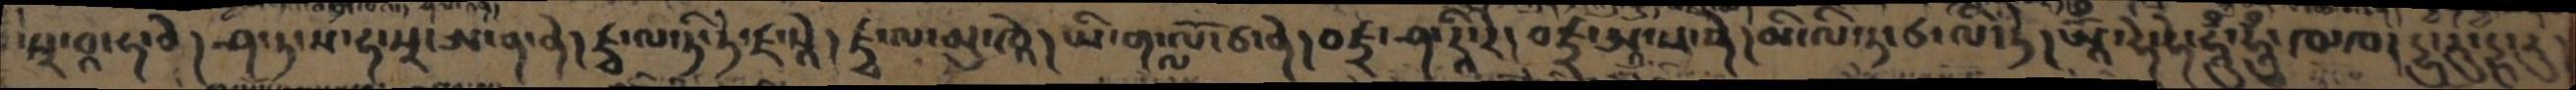སྲ་བཱ་ཧ་བེ།  ཤ་ཏ་ས་དྷ་སྲ་ཨ་ན་ནེ། ཛྭ་ལ་ཏི་ཏེ་ཛ་སཱེ། ཛྭ་ལ་མུ་ཁཱེ། ཡི་ག་ལློ་ཙ་ནེ། བཛྲ་ཤ་རཱི་རེ། བཛྲ་ཨ་ས་ནེ། མི་ལི་ཏ་ཙ་ལི་ཏེ། ཨཱོྃ་ཧེ་ཧེ་ཧཱུྃ་ཧཱུྃ་ཁ་ཁ། དྷུ་རུ་དྷུ་རུ་
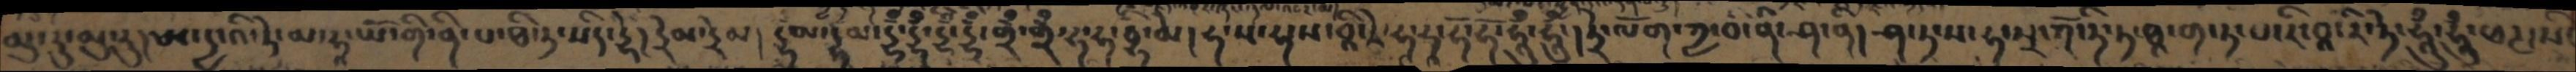མུ་རུ་མུ་རུ། ཨ་དྱ་འི་རེ་མ་ཧཱ་ཡོ་གི་ནི་པ་ཐི་ཏ་སིད་དྷི། དྲེམ་དྲེམ། དྷམ་དྷམ་དྷྃ་དྷྃ་དྷྃ་དྷཾ་གྲྃ་གྲྃ་ཧ་ཧ་བྷ་མེ། ཧ་ས་ཧ་ས་བཱི་རེ་ཧཱ་ཧཱ་ཧཱོ་ཧཱོ་ཧཱུྃ་ཧཱུྃ་། ཏྲེ་ལོག་ཀྱ་བི་ནི་ཤ་ནི། ཤ་ཏ་ས་ཧ་སྲ་ཀོ་ཏི་ཏ་ཐཱ་ག་ཏ་པ་རི་བཱ་རི་ཏེ་ཧཱུྃ་ཧཱུྃ་ཕཊ་སི་
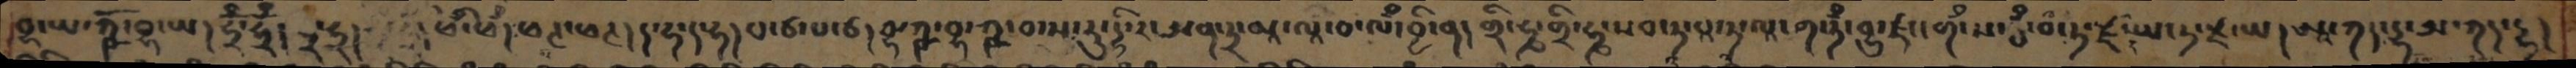བྷ་ཡ་ཀྵོ་བྷ་ཡ། ཧྲྃ་ཧྲྃ། ཧྲ་ཧྲ། ཕྃ་ཕྃ། ཕཊ་ཕཊ། ད་ཧ་ད་ཧ། པ་ཙ་པ་ཙ། བྷ་ཀྵ་བྷ་ཀྵ་བ་ས་རུ་དྷི་ར་ཨན་ཏྲ་མཱ་ལཱ་བ་ལྃ་བྱི་ན། གྲི་ཧྞ་གྲི་ཧྞ་སབ་ཏཱ་པཱ་ཏཱ་ལཱ་ག་ཏྃ་བྱུ་ཛང་གྃ་ས་རྦྃ་བ་ཏ་ཛ་ཡ་ཏ་ཛ་ཡ། ཨཱ་ཀད་དྷ་ཨ་ཀད་དྷ།
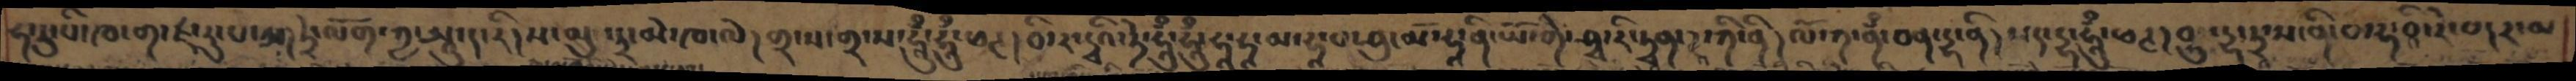ཧ་རུ་སི་ཁ་ག་ཛ་རུ་པ་ཨ་ཏྲེ་ལོག་ཀྱ་ཨཱུ་ད་རི།ས་མུ་ཏྲ་མེ་ཁ་ལེ། གྲ་ས་གྲ་ས་ཧཱུྃ་ཧཱུྃ་ཕཊ། བི་ར་ཏྭའི་ཏེ་ཧཱུྃ་ཧཱུྃ་ཧཱ་ཧཱ་མ་ཧཱ་པ་ཤུ་མོ་ཧཱ་ནི་ཡོ་གེ་ཤྭ་རི་ཏྭན་ཌཱ་ཀི་ནི། ལོ་ཀ་ནྃ་བན་དྷ་ནི།སད་དྷ་ཧཱུྃ་ཕཊ། བུ་དྷ་ཏྲཱ་ས་ནི་བ་ཧ་བཱི་རེ་པ། ར་མ
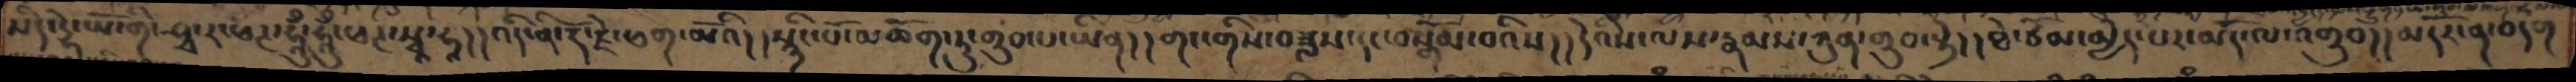སིད་དྷེ་ཡོ་གི་ཤྭ་ར་ཕཊ་ཧཱུྃ་ཧཱུྃ་ཕཊ་སྭཱ་ཧཱ།། འདི་ནི་རྡོ་རྗེ་ཕག་མོའི།། སྙིང་པོ་མཆོག་ཏུ་གྲུབ་པ་ཡིན།། གང་གིས་བཟླས་དང་བསྒོམ་བའིས།། དེའིས་རྣམས་ཀུན་གྲུབ་སྟེ།། ཐེ་ཙོམ་མྱེད་པར་མོད་ལ་འགྲུབ།། མདོར་ན་བདག
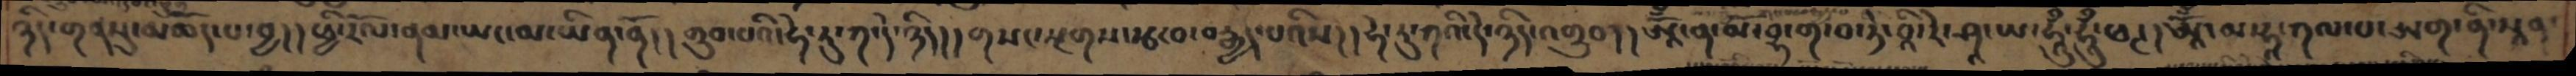ཉིད་གནསུ་མཆོད་པ་བྱ།། ཕྱི་རོལ་ནམ་ཡང་མ་ཡིན་ནོ།། གྲུབ་པའི་ཧེ་རུ་ཀ་དེ་ཉིད།། གསང་སྔགས་རྩ་བ་བརྒྱད་པའིས།། ཧེ་རུ་ཀའི་དེ་ཉིད་འགྲུབ།། ཨཱོྃ་ན་མོ་བྷ་ག་བ་ཏེ་བཱི་རེ་ཤཱ་ཡ་ཧཱུྃ་ཧཱུྃ་ཕཊ། ཨཱོྃ་མ་ཧཱ་ཀལ་པ་ཨག་ནི་སཱན་
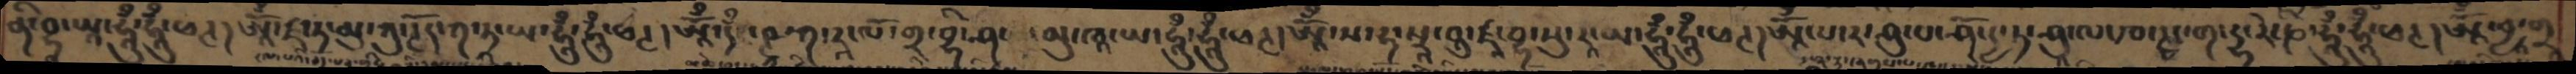ནི་བྷ་ཡཱ་ཧཱུྃ་ཧཱུྃ་ཕཊ། ཨཱོྃ་ཛ་ཏ་མུ་ཀུ་ཊོར་ཀ་ཏ་ཡ་ཧཱུྃ་ཧཱུྃ་ཕཊ། ཨཱོྃ་དྃ་བྚ་ཀ་རཱ་ལོ་གྲ་བྷི་ཤ་མུ་ཁཱ་ཡ་ཧཱུྃ་ཧཱུྃ་ཕཊ། ཨཱོྃ་ས་ཧ་སྲཱ་བུ་ཛཱ་བྷ་སུ་རཱ་ཡ་ཧཱུཾ་ཧཱུཾ་ཕཊ། ཨཱོྃ་པ་ར་ཤུ་པ་ཤོ་དྱ་ཏ་ཤུ་ལང་བ་ཊཱང་ག་དྷ་རེ་ཎི་ཧཱུྃ་ཧཱུྃ་ཕཊ། ཨཱོྃ་བྱ་གྲ
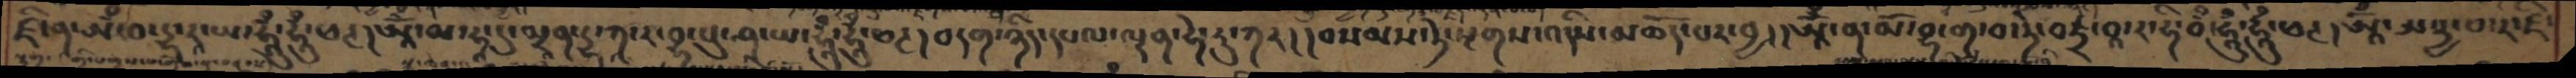ཛི་ན་ཨྃ་བ་དྷ་ར་ཡ་ཧཱུྃ་ཧཱུྃ་ཕཊ། ཨཱོྃ་མ་ཧཱ་དུ་མྲན་དྷ་ཀཱ་ར་བྷ་སུ་ཤཱ་ཡ་ཧཱུྃ་ཧཱུྃ་ཕཊ། བདག་ཉིད་དཔལ་ལྡན་ཧེ་རུ་ཀར།། བསམས་ཏེ་སྔགས་འདིས་མཆོད་པར་བྱ།། ཨཱོྃ་ན་མོ་བྷ་ག་བ་ཏེ་བཛྲ་བཱ་ར་དྷི་བྃ་ཧཱུྃ་ཧཱུྃ་ཕཊ། ཨཱོྃ་ཨ་ཏྱ་བ་ར་ཛི་
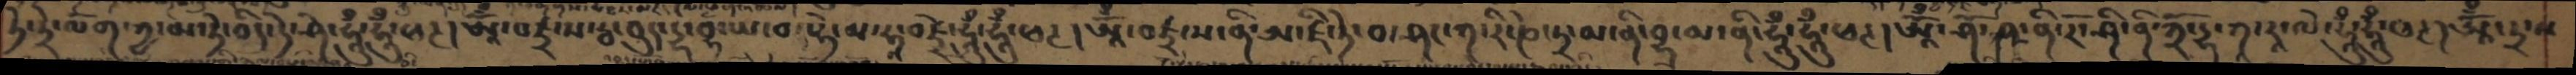ཏེ་ཏྲེ་ལོག་ཀྱ་མ་ཏེ་བིད་དེ་ཤེ་ཧཱུྃ་ཧཱུྃ་ཕཊ། ཨཱོྃ་བཛྲ་ས་རྦ་བུད་དྷ་བྷ་ཡ་བ་ཧེ་མ་ཧཱ་བཛྲེ་ཧཱུྃ་ཧཱུྃ་ཕཊ། ཨཱོྃ་བཛྲ་ས་ནི་ཨ་ཛི་ཏེ་བ་ཤང་ཀ་རི་ཎེ་ཏྲ་མ་ནི་བྷྲ་མ་ནི་ཧཱུྃ་ཧཱུྃ་ཕཊ། ཨཱོྃ་ཤོ་ཥ་ནི་རོ་ཤི་ནི་ཀྲོ་དྷ་ཀ་རཱ་ལེ་ཧཱུྃ་ཧཱུྃ་ཕཊ། ཨཱོྃ་ཏྲ་ས
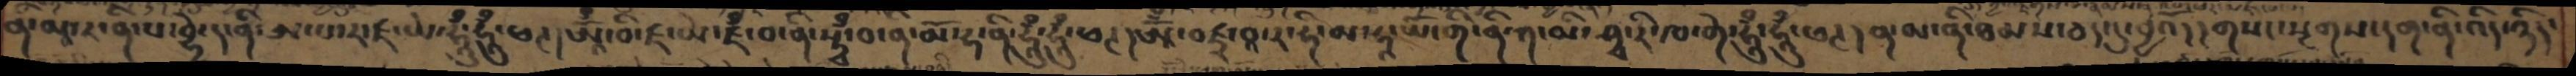ནི་མཱ་ར་ནི་པ་བྷེ་ད་ནི་ཨ་པ་ར་ཛ་ཡེ་ཧཱུྃ་ཧཱུྃ་ཕཊ། ཨཱོྃ་བི་ཛ་ཡེ་ཛྃ་བ་ནི་སྟྭྃ་བ་ན་མོ་ཧ་ནི་ཧཱུྃ་ཧཱུྃ་ཕཊ། ཨཱོྃ་བཛྲ་བཱ་ར་ཧི་མ་ཧཱ་ཡོ་གི་ནི་ཀ་མི་ཤྭ་རི་ཁ་གེ་ཧཱུྃ་ཧཱུྃ་ཕཊ། ན་མ་ནི་ཐམས་ཅད་དུ་བྱའོ།། གསང་སྔགས་དག་ནི་འདི་ཉིད་
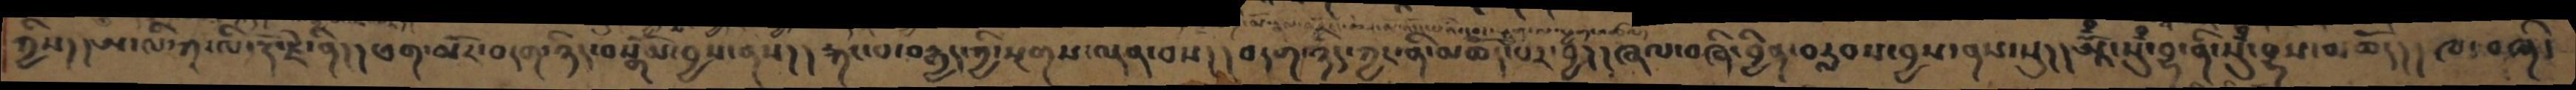ཀྱིས།། ཨ་ལི་ཀཱ་ལི་རྡོ་རྗེ་ནི།། ཕག་མོར་བདག་ཉིད་བསྒོམ་བྱས་ནས།། རྐང་པ་བརྒྱད་ཀྱི་སྔགས་ལྡན་བས།། བདག་ཉིད་ཀྱང་ནི་མཆོད་པར་བྱ།། ཞལ་བཞི་བྱིན་བརླབས་བྱས་ནས་སུ།། ཨཱོྃ་སུྃ་བྷ་ནི་སུྃ་བྷས་མཆོད།། ཁ་བཞི་
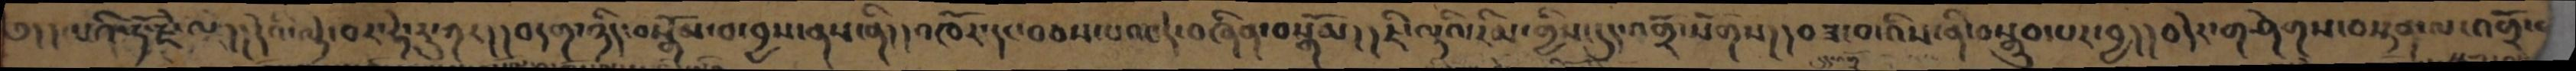༄།།པའི་རྡོ་རྗེ་ལ།། དེའི་ལྟེ་བར་ཧེ་རུ་ཀར།། བདག་ཉིད་བསྒོམ་བ་བྱས་ནས་ནི།།འཁོར་དང་བཅས་པའང་དེ་བཞིན་བསྒོམ།། ཇི་ལྟའི་རིམ་གྱིས་དུད་འགྲོ་སོགས།། བཟ་བ་འིས་ནི་བསྒྲུབ་པར་བྱ།། བདེར་གཤེགས་བསྟན་ལ་འགྲོ་བ
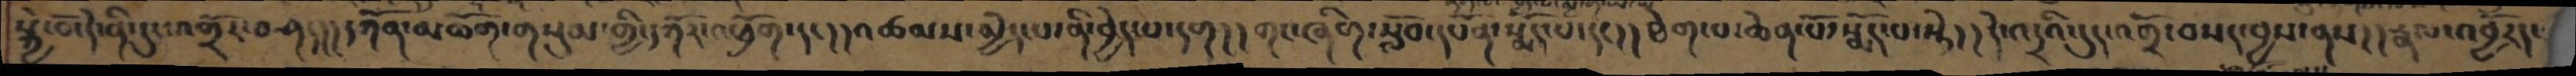སྐྱེ་བོ་དེ་ནི་དུད་འགྲོར་བཤད།།དཀོན་མཆོག་གསུམ་གྱི་དཀོར་འཕྲོག་དང།།འཚམས་མྱེད་པ་ནི་བྱེད་པ་དག།།གང་ཞིག་སློབ་དཔོན་སྨོད་པ་དང་།།ཐེག་པ་ཆེན་པོ་སྨོད་པ་སྟེ།།དེ་འདྲའི་དུད་འགྲོ་བསད་བྱས་ནས།། རྣལ་འབྱོརད་
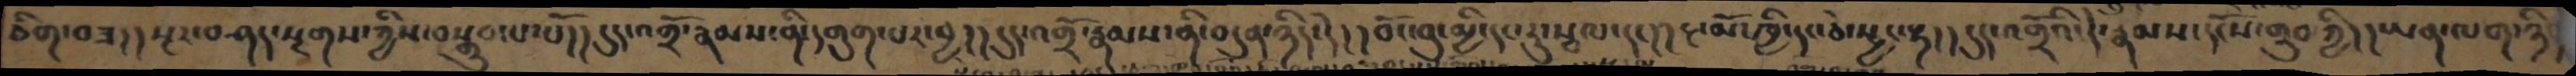ཅིག་བཟ།། སྔར་བཤད་སྔགས་ཀྱིས་བསྒྲུབ་པ་པོ།། དུད་འགྲོ་རྣམས་ནི་དགུག་པར་བྱ།། དུད་འགྲོ་རྣམས་ནི་བདུན་ཉིད་དེ།།བོང་བུ་མྱི་དང་རུ་སྦལ་དང།། རྔ་མོ་ཁྱི་དང་ཅེ་སྦྱང་རྟ།། དུད་འགྲོའི་དེ་རྣམས་དངོས་གྲུབ་ཀྱི།། ཡན་ལག་ཉིད
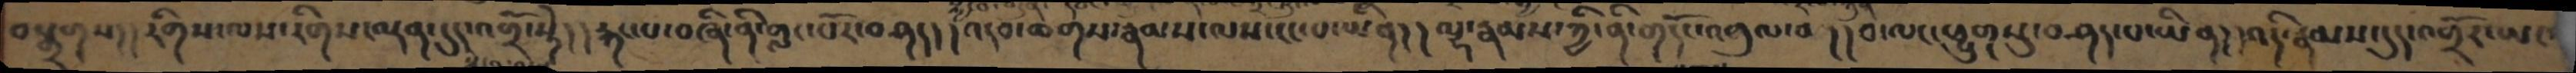བསྒྲགས།། རིགས་ལས་རིགས་ལྡན་དུད་འགྲོ་སྟེ།། རྐང་པ་བཞི་ནི་གླང་པོར་བཤད།། འདབ་ཆགས་རྣམས་ལས་ངང་པ་ཡིན།། ལྷ་རྣམས་ཀྱི་ནི་གདོང་འགུལ་བ།། བ་ལང་ཕྱུགསུ་བཤད་པ་ཡིན།། འདི་རྣམས་དུད་འགྲོར་ཡང་
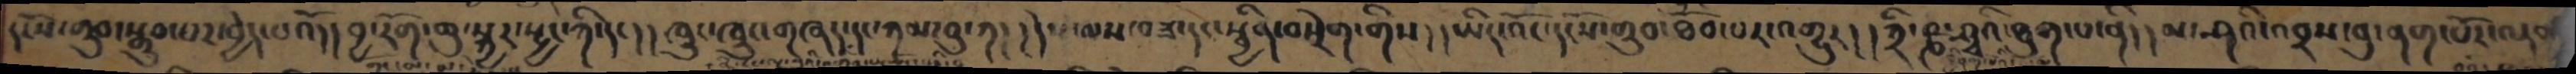དངོས་གྲུབ་སྒྲུབ་པར་བྱེད་པའོ།། བྱ་རོག་ཆུ་སྐྱར་སྤྱང་ཀི་དང།། ཁྲུང་ཁྲུང་གཞད་དང་ཀམ་བུ་ཀ།། དེས་ལས་བཟ་དང་སྦྱིན་བསྲེག་གིས།། ཡིད་འོང་དངོས་གྲུབ་ཐོབ་པར་འགྱུར།། ཀྲི་ཥྞ་ཤྭའི་ཐུག་པ་ནི།། མ་ཤའི་འབྲས་བུ་ནག་པོར་ལྡན
